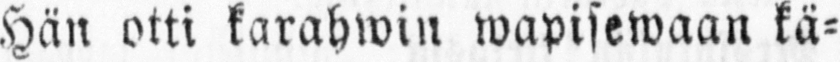Hän otti karahwin wapisewaan kä-
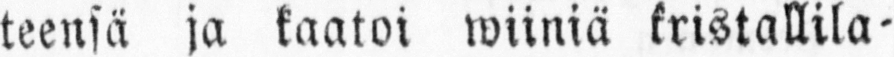teensä ja kaatoi wiiniä kristallila-
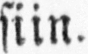siin.
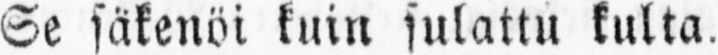Se säkenöi kuin sulattu kulta.
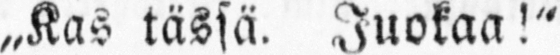„Kas tässä. Juokaa!"
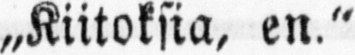„Kiitoksia, en."
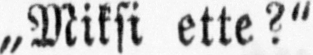„Miksi ette?"
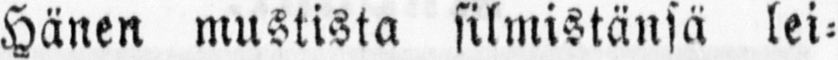Hänen mustista silmistänsä lei-
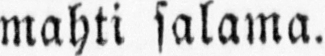mahti salama.
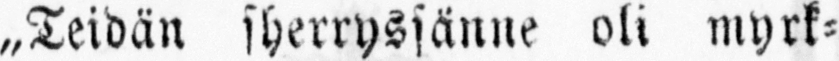„Teidän sherryssänne oli myrk-
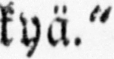kyä."
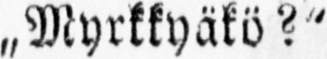„Myrkkyäkö?"
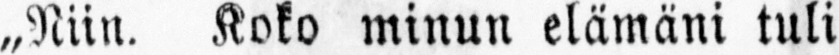„Niin. Koko minun elämäni tuli
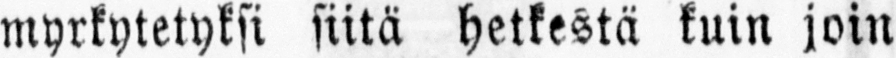myrkytetyksi siitä hetkestä kuin join
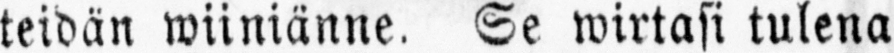teidän wiiniänne. Se wirtasi tulena
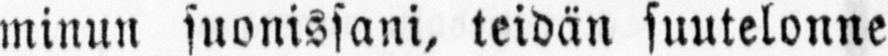minun suonissani, teidän suutelonne
